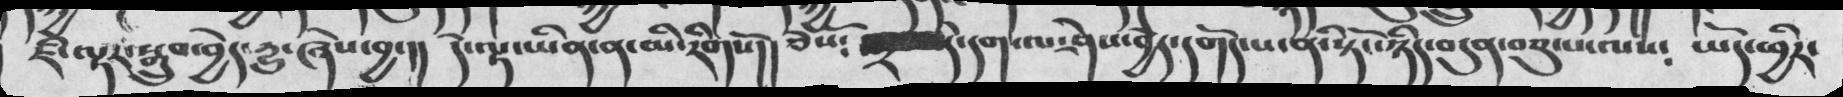ཇི་ལྟར་སྒྲུབ་བྱེད་དྱུ་ཞེས་བྱ་།།  དེ་ལྟ་ཡིན་ན་མི་རིགསོ།།   ཅེསོ༴  དེ་དག་ལ་ཤེས་བྱེད་དགོད་པ་ནི་སྟོང་ཉིད་བདུན་བཅུ་པ་ལས༴  ཡོད་ཕྱིར་
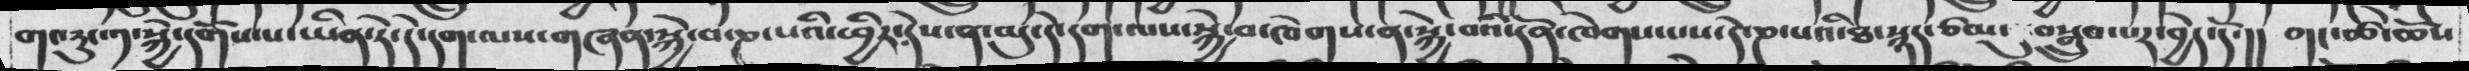གང་རུང་༡་སྐྱེ་དགོས་པ་ཡིན་ཏེ་དེ་དག་ལས་གཞན་སྐྱེ་བ་ཎ་པའི་ཕྱིར་དེས་ན་མུ་དེ་དག་ལས་སྐྱེ་བ་ཁེགས་ན་སྐྱེ་བའི་དོན་ཁེགས་པས་དེ་ཎ་པའི་ཐ་སྙད་ཙམ་དུ་བསྒྲུབ་པར་བྱེད་དོ་།།  གང་ཚེ་ཆོས
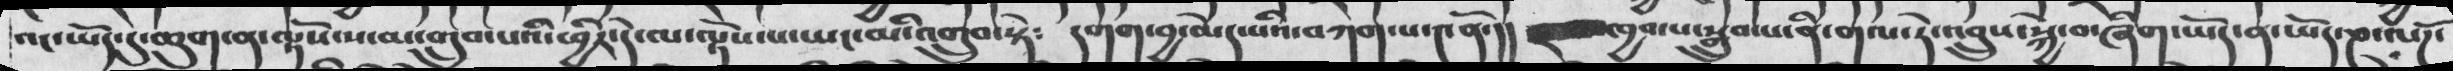འང་ཡོད་དུ་ཆུག་ན་ལྟོས་ས་མ་གྲུབ་པའི་ཕྱིར་དེ་ལ་ལྟོས་པ་ཡང་མི་འགྲུབ་སྟེ༴   དགག་བྱ་མེད་པའི་བཀག་པ་༤ནོ་།།  ཁྱབ་པ་སྒྲུབ་པ་ནི་གལ་ཏེ་འབྲུས་སྐྱེ་བ་ཞིག་ཡོད་ན་ཡོད་ཎ་ལོཌ་
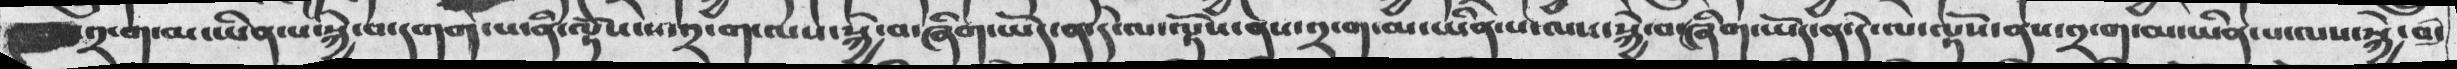༢་ག་མ་ཡིན་པ་སྐྱེ་བ་དགག་པ་ནི་ལྟོས་ས་༢་ག་ལས་སྐྱེ་བ་ཞིག་ཡོད་ན་དེ་ལྟོས་ནས་༢་ག་མ་ཡིན་པ་ལས་སྐྱེ་བ་ཞིག་ཡོད་ན་དེ་ལ་ལྟོས་ནས་༢་ག་མ་ཡིན་པ་ལས་སྐྱེ་བ་
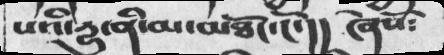པའི་དྱུ་ནི་མ་མཐོང་ངོ་།།   ཞེསོ༴
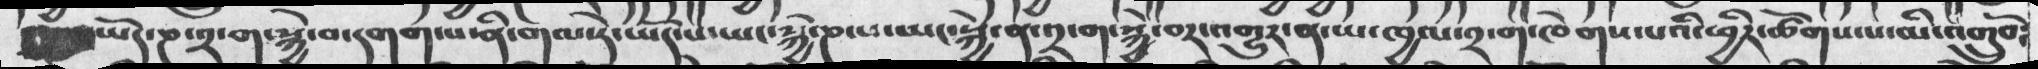ཡོད་ན་༢་ག་སྐྱེ་བ་དགག་པ་ནི་གལ་ཏེ་ཡོད་པ་ཡང་སྐྱེ་ཎ་པ་ཡང་སྐྱེ་ན་༢་ག་སྐྱེ་བར་འགྱུར་ན་ཡ་ཁྱཀ་༢་ག་ཁེགས་པའི་ཕྱིར་ཚོགས་པ་མི་འགྲུབོ༴
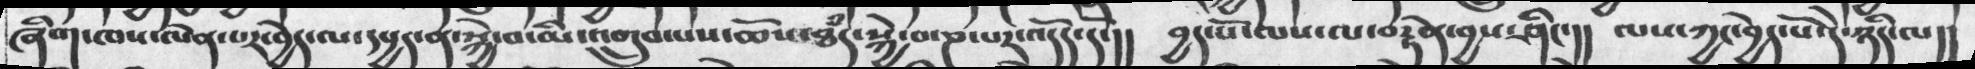ཞིག་ཁས་ལེན་པར་བྱེད་ལ་དཔྱད་ན་སྐྱེ་བ་མི་འགྲུབ་པས་ཆོས་ཐཾད་སྐྱེ་བ་ཎ་པར་འདོད་དོ་།།   བྱད་པོ་ལས་ལ་བརྟེན་བྱས་ཤིང་།།   ལས་ཀྱང་བྱེད་པོ་དེ་ཉིད་ལ།།
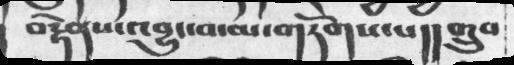བརྟེནས་འབྱུང་མ་གཏོགས་པ་།།   གྲུབ་
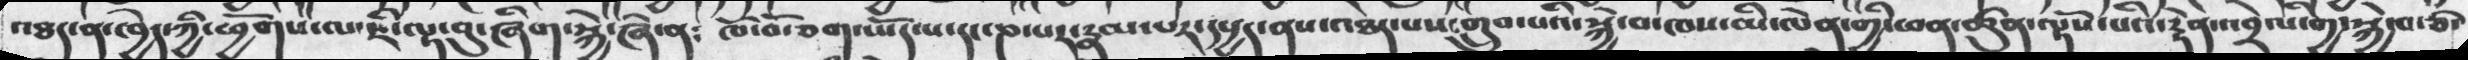འཐད་ཁྱེད་ཀྱི་ཕྱོགས་ལ་ཇི་ལྟ་བུ་ཞིག་སྐྱེ་ཞེ་ན༴   ཁོ་བོ་ཅག་ཡོད་པ་དང་ཎ་པར་རྣམ་པར་དཔྱད་ནས་འཐད་པས་གྲུབ་པའི་སྐྱེ་བ་ཁས་མི་ལེན་གྱི་ཕན་ཚུན་ལྟོས་པའི་རྟེན་འབྲེལ་གྱི་སྐྱེ་བ་ཙ་
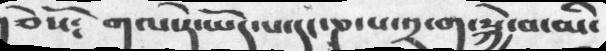ཅེསོ༴      གལ་ཏེ་ཡོད་པ་དང་ཎ་པ་༢་ག་སྐྱེ་བ་མི་
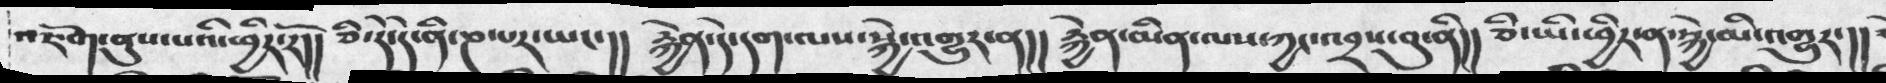འཇོག་ནུས་པའི་ཕྱིར་རོ།།  ཅི་དེ་དེ་ནི་ཎ་པར་ཡང་།།    རྐྱེན་དེ་དག་ལས་སྐྱེ་འགྱུར་ན།།   རྐྱེན་མིན་ལས་ཀྱང་འབྲས་བུ་ནི།།  ཅི་ཡི་ཕྱིར་ན་སྐྱེ་མི་འགྱུར་།།
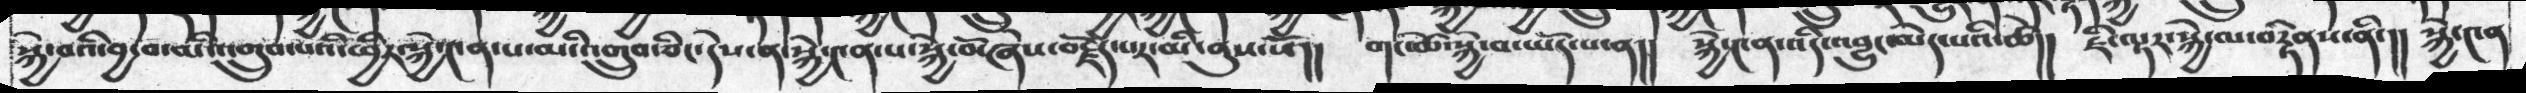སྐྱེ་བའི་བྱ་བ་མི་འགྲུབ་པའི་ཕྱིར་སྐྱེ་༤ན་པ་མི་འགྲུབ་ཅིང་དེས་ན་སྐྱེ་༤ན་པ་སྐྱེ་བོ་ཞེས་བརྗོད་པར་མི་ནུས་སོ།།  གང་ཚེ་སྐྱེ་བ་ཡོད་པ་ན།།  སྐྱེ་༤ན་འདི་འབྱུང་མེད་པའི་ཚེ།།   ཇི་ལྟར་སྐྱེ་ལ་བརྟེནས་ནི་།།  སྐྱེ་༤ན
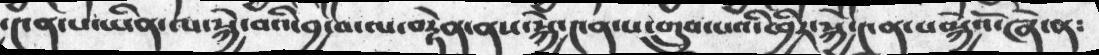་༤ན་པ་ཡིན་ལ་སྐྱེ་བའི་བྱ་བ་ལ་བརྟེན་ནས་སྐྱེ་༤ན་པ་གྲུབ་པའི་ཕྱིར་སྐྱེ་༤ན་པ་སྐྱེའོ་ཞེ་ན༴
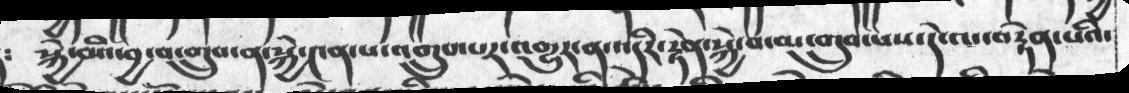སྐྱེ་བའི་བྱ་བ་གྲུབ་ན་སྐྱེ་༤ན་པ་འགྲུབ་པར་འགྱུར་ན་འདིར་རྟེན་སྐྱེ་བ་མ་གྲུབ་པས་དེ་ལ་བརྟེན་པའི་
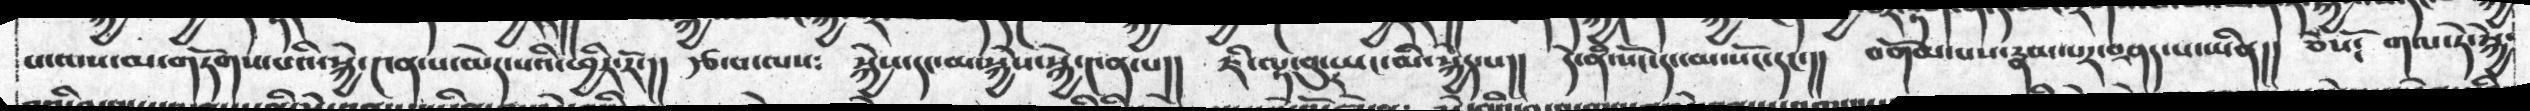པ་ལས་མ་གཏོགས་པའི་སྐྱེ་༤ན་པ་མེད་པའི་ཕྱིར་རོ་།།  རྩ་བ་ལས༴  སྐྱེས་དང་མ་སྐྱེས་སྐྱེ་༤ན་པ།།   ཇི་ལྟ་བུར་ཡང་མི་སྐྱེད་པ།།  དེ་ནི་སོང་དང་མ་སོང་དང་།།  བགོམས་པས་རྣམ་པར་བཤད་པ་ཡིན།།  ཅེསོ༴  གལ་ཏེ་སྐྱེ་
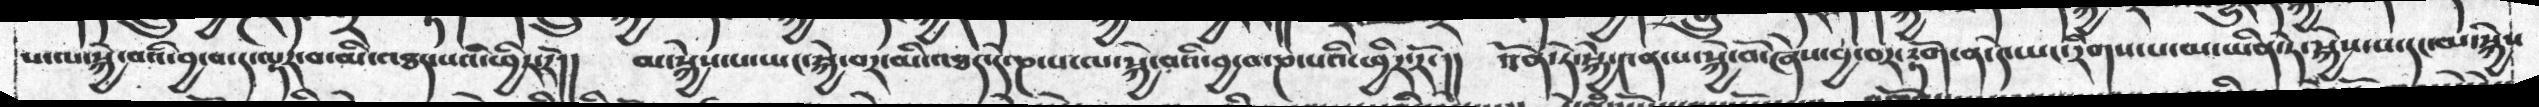ས་ལ་སྐྱེ་བའི་བྱ་བ་ད་ལྟར་བ་མི་འཐད་པའི་ཕྱིར་རོ།།  མ་སྐྱེས་པ་ཡང་སྐྱེ་བར་མི་འཐད་དེ་ཎ་པ་ལ་སྐྱེ་བའི་བྱ་བ་ཎ་པའི་ཕྱིར་རོ་།།  འོན་ཏེ་སྐྱེ་༤ན་པ་སྐྱེ་བོ་ཞེས་བྱ་བར་རྟོག་ན་དེ་ཡང་རིགས་པ་མ་ཡིན་ཏེ་སྐྱེས་པ་དང་མ་སྐྱེས
